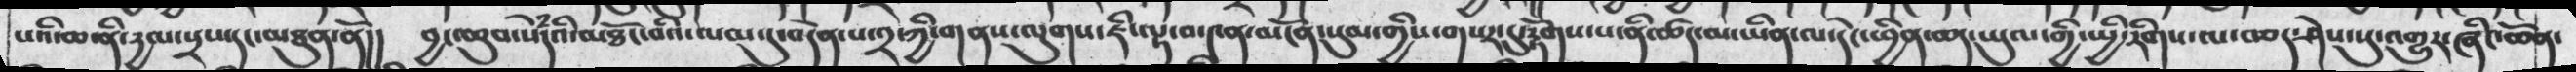པའི་ཆ་ནི་དྱལ་སྲས་དང་མཐུན་ནོ།།  བྱང་ཆུབ་སེཾདའི་མཐོང་བའི་ལམ་དུ་བདེན་པ་༢་ཀྱི་གནས་ལུགས་ཇི་ལྟ་བ་༤ན་མངོན་སུམ་གྱིས་གསར་དུ་རྟོགས་པ་ནི་ཚད་མ་ཡིན་ལ་དེང་ཕྱིན་ཆད་ཡུལ་གྱི་སྤྱི་རིགས་ལ་བཅད་ཤེས་སུ་འགྱུར་ཞིང་ཆོན་
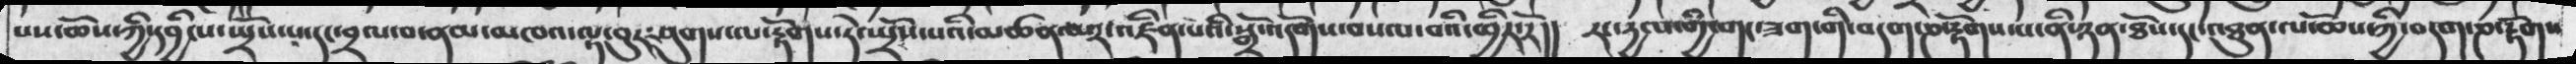པས་ཆོས་ཀྱི་དབྱིངས་སྤྲོས་པ་དང་བྲལ་བ་ནམ་མཁའ་ལྟ་བུར་ཤུགས་པ་རྟོགས་དེ་སྤྲོས་པའི་མཚན་མ༨་འཛིན་པའི་སྒྲོ་འདོགས་བསལ་བའི་ཕྱིར་རོ།།  རང་དྱལ་གྱི་གང་ཟག་གི་བདག་ཎ་རྟོགས་པ་ནི་ཉན་ཐོས་དང་འཐུན་ལ་ཆོས་ཀྱི་བདག་ཎ་རྟོགས
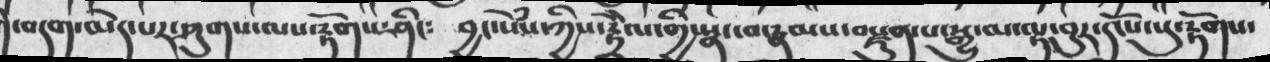བདག་མེད་པར་ཤུགས་ལས་རྟོགས་ཤིང༴  བྱང་སེཾས་ཀྱིས་རྟྲཻལ་གྱི་སྣང་བ་རྣམས་བརྫུན་པ་སྒྱུ་ལ་ལྟ་བུར་དངོས་སུ་རྟོགས་
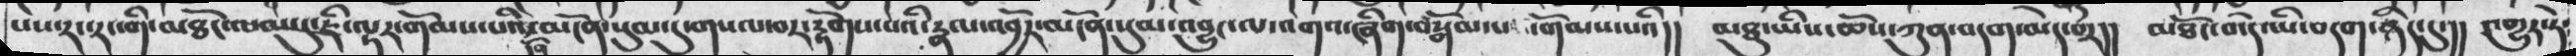པས་རང་རང་གི་མཐོང་ལམ་དུ་ཇི་ལྟར་གོམས་པའི་དོན་མངོན་སུམ་དུ་གསལ་བར་རྟོགས་པའི་རྣལ་འབྱོར་མངོན་སུམ་འབྱུང་ལ་འགའ་ཞིག་བསྒོམ་པ་གོམས་པའི།།  མཐུ་ཡིས་ཆོས་ཀུན་བདག་མེད་པར།།  མཐོང་བ་དེ་ཡི་བདག་ཡི་བདག་ཉིད་དུ་།།  འགྱུར་ཏེ་
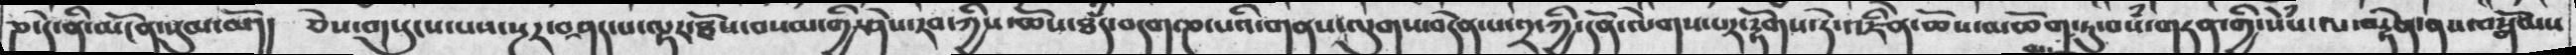ཎ་དེ་ནི་མངོན་སུམ་མོ།།  ཅེས་གསུངས་པས་སྔར་བཤད་པ་ལྟར་ཐོས་བསམ་གྱི་ཤེས་རབ་ཀྱིས་ཆོས་ཐཾད་བདག་ཎ་པའི་གནས་ལུགས་བདེན་པ་༢་ཀྱི་དོན་ལེགས་པར་རྟོགས་དེ་འཇིེན་ཆོས་མཆོག་ཏུ་བསཾ་གཏན་གྱི་སེཾས་ལ་བརྟེན་ནས་བསྒོམས
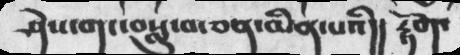ཤེས་གང་བསླུ་བ་ཅན་མིན་པའི།།  རྟོག་
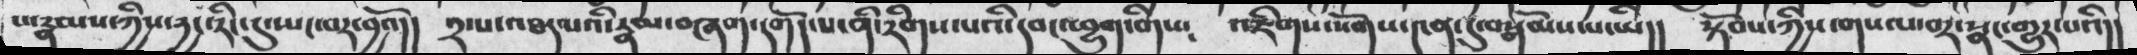པ་རྣམས་ཀྱིས་རྱང་རིང་དུ་སྤང་བར་བྱའོ།།  ༢་པ་འཐད་པའི་རྣམ་བཞག་དགོས་པ་ནི་རིགས་པའི་དབང་ཕྱུག་གིས༴  འཇིགས་སོགས་༤ན་དུ་བསྒོམས་པ་ཡི།།  སྟོབས་ཀྱིས་གང་ལ་བར་སྣང་གྱུར་པའི།།
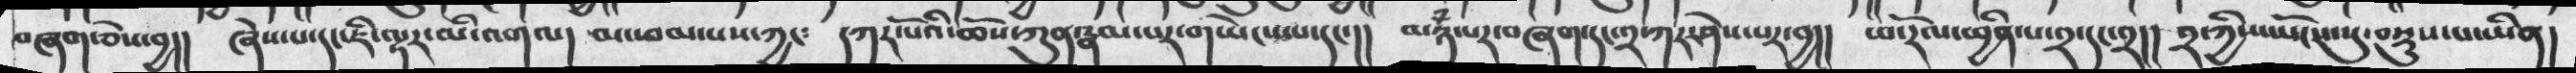བཞན་ཅེས་བྱ།།  ཞེས་པ་དང་ཇི་ལྟར་མི་འགལ།  མ་ཕམ་པས་ཀྱང༴  དཀར་པོའི་ཆོས་ཀུན་རྣམ་པར་གཡེང་པས་དང་།།  མཉཾ་པར་བཞག་དང་༢་ཀར་ཤེས་པར་བྱ།།  ཕ་རོལ་ཕྱིན་པ་༢་དང་༢།།  ༢་ཀྱིས་ཡོངས་སུ་བསྡུས་པ་ཡིན།
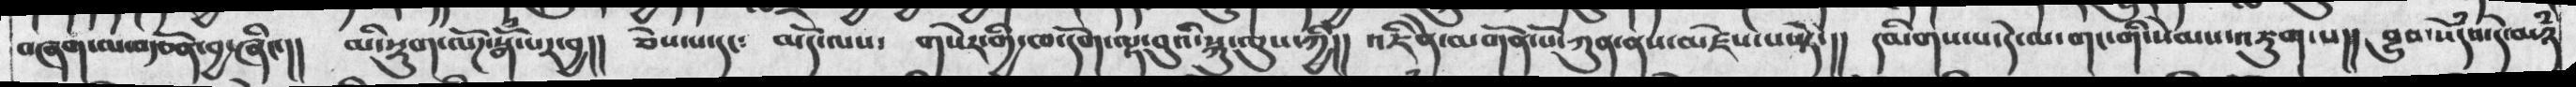བཞག་ལ་བརྩོན་བྱ་ཞིང།།  མི་སྡུག་ལོཌ་སྒོཾ་པར་བྱ།། ཅེས་པ་དང༴  མདོ་ལས༴  གསེར་གྱི་ཁ་དོག་ལྟ་བུའི་སྐུ་ལུས་ཀྱི།།  འཇིེན་མགོན་པོ་ཀུན་ནས་མཛེས་པ་སྟེ་།།   དམིགས་པ་དེ་ལ་གང་གི་སེམས་འཇུག་པ།།  བྱུབ་སེཾདས་དེ་མཉཾ
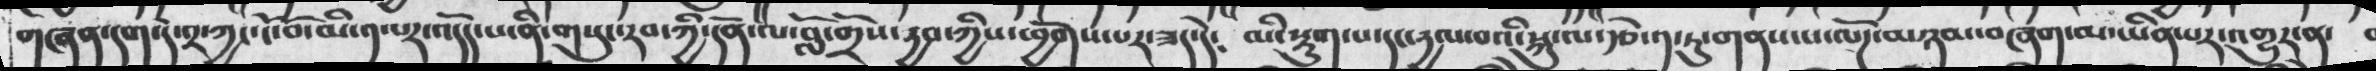གཞན་དག་དེ་༢་ཀྱང་ངོ་བོ་མི་༡་པར་འདོད་པ་ནི་གསུང་བར་ཀྱི་དོན་ལ་བློ་གྲོས་རྱབ་ཀྱིས་ཕྱོགས་པར་ཟད་དེ༴  མི་སྡུག་པ་དང་དྱལ་བའི་སྐུལ་རྩེ་༡་ཏུ་གནས་པ་ལོཌ་མཉམ་བཞག་མ་ཡིན་པར་འགྱུར་ན་
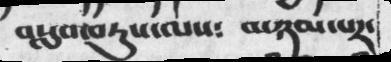བསླབ་བཏུས་ལས༴  མཉམ་པར་
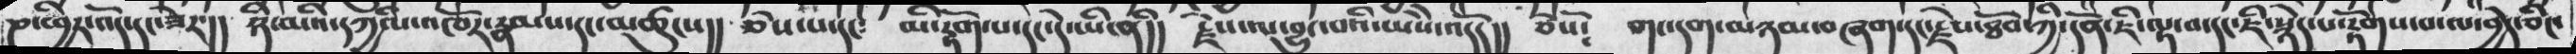ཎ་ཕྱིར་འོད་དང་ཟེར་།།  ཉི་མའི་དཀྱིལ་འཁོར་རྣམས་དང་མཚུངས།།  ཅེས་པ་དང༴   མི་རྟོག་པ་དང་དེ་ཡི་ནི།།  རྗེས་་ལ་བྱུང་བའི་ཡེེས་འདོད།།  ཅེསོ༴  གང་དག་མཉམ་བཞག་དང་རྗེས་ཐོབ་ཀྱི་དོན་ཇི་ལྟ་བ་དང་ཇི་སྙེད་པ་རྟོགས་པ་ལ་བྱེད་ཅིང་
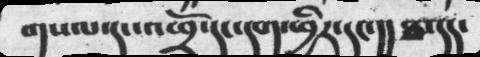གསལ་དང་འཕྲོ་དང་དག་ཕྱིར་དང་།། ཐ་དད་
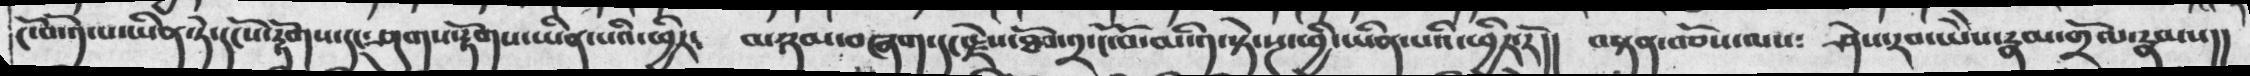ངོ་བོ་༡་པ་ཡིན་ཏེ་དངོས་རྟོགས་དང་ཤུགས་རྟོགས་ཡིན་པའི་ཕྱིར༴  མཉམ་བཞག་དང་རྗེས་ཐོབ་༢་ངོ་བོ་མི་༡་སྟེ་སྔ་ཕྱི་ཡིན་པའི་ཕྱིར་རོ།།  བསྟན་བཅོས་ལས༴  ཤེས་རབ་ཡེེས་རྣམ་གྲོལ་རྣམས།།
